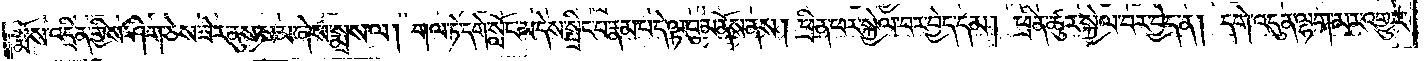སྨོས་འདྲིན་གྱིས་ཤིག་ཅེས་ནུས་སམ་ཞེས་སྨྲས་ལ། གལ་ཏེ་དགེ་སློང་མ་དེས་སྤྲིང་པ་རྣམ་པ་དེ་ལྟ་བུ་མནོས་ནས། ཕྲིན་ཕར་སྐྱེལ་བར་བྱེད་དམ། ཕྲིན་ཚུར་སྐྱེལ་བར་བྱེད་ན། དགེ་འདུན་ལྷག་མར་འགྱུར་
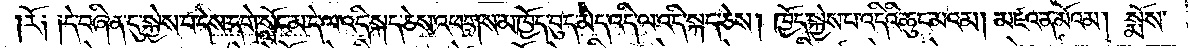རོ༑ ༑དེ་བཞིན་དུ་སྐྱེས་བ་དེས་དགེ་སློང་མ་དེ་ལ་འདི་སྐད་ཅེས་འཕགས་མ་ཁྱོད་བུད་མེད་འདི་ལ་འདི་སྐད་ཅེས། ཁྱོད་སྐྱེས་པ་འདིའི་ཆུང་མའམ། མཛའ་ན་མོའམ། སྨོས་
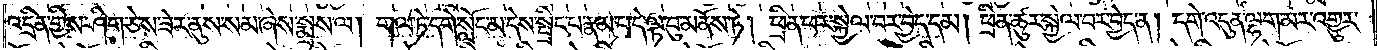འདྲིན་གྱིས་ཤིག་ཅེས་ཟེར་ནུས་སམ་ཞེས་སྨྲས་ལ། གལ་ཏེ་དགེ་སློང་མ་དེས་སྤྲིང་པ་རྣམ་པ་དེ་ལྟ་བུ་མནོས་ཏེ། ཕྲིན་ཕར་སྐྱེལ་བར་བྱེད་དམ། ཕྲིན་ཚུར་སྐྱེལ་བར་བྱེད་ན། དགེ་འདུན་ལྷག་མར་འགྱུར་
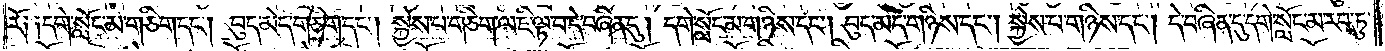རོ༑ ༑དགེ་སློང་མ་གཅིག་དང༌། བུད་མེད་གཅིག་དང༌། སྐྱེས་པ་གཅིག་ལ་ཇི་ལྟ་བ་དེ་བཞིན་དུ། དགེ་སློང་མ་གཉིས་དང༌། བུད་མེད་གཉིས་དང༌། སྐྱེས་པ་གཉིས་དང༌། དེ་བཞིན་དུ་དགེ་སློང་མ་རབ་ཏུ་
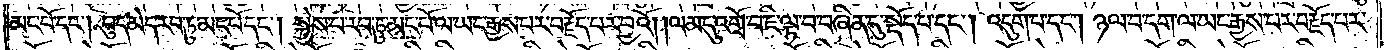མང་པོ་དང༌། བུད་མེད་རབ་ཏུ་མང་པོ་དང༌། སྐྱེས་པ་རབ་ཏུ་མང་པོ་ལ་ཡང་རྒྱས་པར་བརྗོད་པར་བྱའོ། །ལམ་དུ་འགྲོ་བ་ཇི་ལྟ་བ་བཞིན་དུ་སྡོད་པ་དང༌། འདུག་པ་དང༌། ཉལ་བ་དག་ལ་ཡང་རྒྱས་པར་བརྗོད་པར་
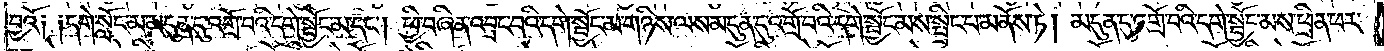བྱའོ༑ ༑དགེ་སློང་མ་མདུན་དུ་འགྲོ་བའི་དགེ་སྦྱོང་མ་དང༌། ཕྱི་བཞིན་འབྲང་བའི་དགེ་སྦྱོང་མ་གཉིས་ལས་མདུན་དུ་འགྲོ་བའི་དགེ་སྦྱོང་མས་སྤྲིང་པ་མནོས་ཏེ། མདུན་དུ་འགྲོ་བའི་དགེ་སྦྱོང་མས་ཕྲིན་ཕར་
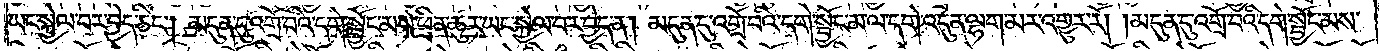ཡང་སྐྱེལ་བར་བྱེད་ཅིང༌། མདུན་དུ་འགྲོ་བའི་དགེ་སྦྱོང་མས་ཕྲིན་ཚུར་ཡང་སྐྱེལ་བར་བྱེད་ན། མདུན་དུ་འགྲོ་བའི་དགེ་སྦྱོང་མ་ལ་དགེ་འདུན་ལྷག་མར་འགྱུར་རོ། །མདུན་དུ་འགྲོ་བའི་དགེ་སྦྱོང་མས་
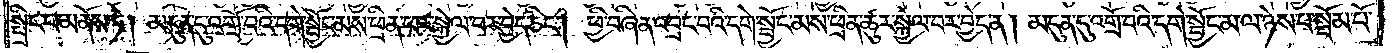སྤྲིང་པ་མནོས་ཏེ། མདུན་དུ་འགྲོ་བའི་དགེ་སྦྱོང་མས་ཕྲིན་ཕར་སྐྱེལ་བར་བྱེད་ཅིང༌། ཕྱི་བཞིན་འབྲང་བའི་དགེ་སྦྱོང་མས་ཕྲིན་ཚུར་སྐྱེལ་བར་བྱེད་ན། མདུན་དུ་འགྲོ་བའི་དགེ་སྦྱོང་མ་ལ་ཉེས་པ་སྦོམ་པོ་
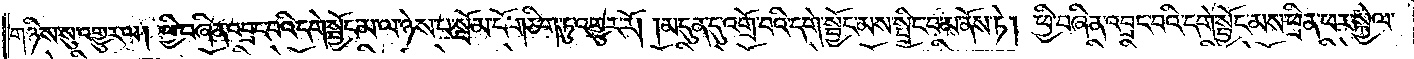གཉིས་སུ་འགྱུར་ལ། ཕྱི་བཞིན་འབྲང་བའི་དགེ་སྦྱོང་མ་ལ་ཉེས་པ་སྦོམ་པོ་གཅིག་ཏུ་འགྱུར་རོ། །མདུན་དུ་འགྲོ་བའི་དགེ་སྦྱོང་མས་སྤྲིང་བ་མནོས་ཏེ། ཕྱི་བཞིན་འབྲང་བའི་དགེ་སྦྱོང་མས་ཕྲིན་ཕར་སྐྱེལ་
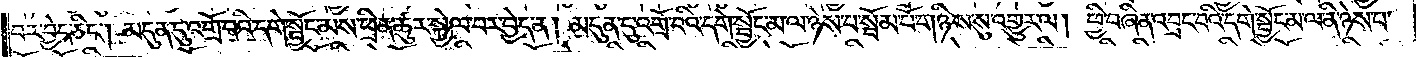བར་བྱེད་ཅིང༌། མདུན་དུ་འགྲོ་བའི་དགེ་སྦྱོང་མས་ཕྲིན་ཚུར་སྐྱེལ་བར་བྱེད་ན། མདུན་དུ་འགྲོ་བའི་དགེ་སྦྱོང་མ་ལ་ཉེས་པ་སྦོམ་པོ་གཉིས་སུ་འགྱུར་ལ། ཕྱི་བཞིན་འབྲང་བའི་དགེ་སྦྱོང་མ་ལ་ནི་ཉེས་པ་
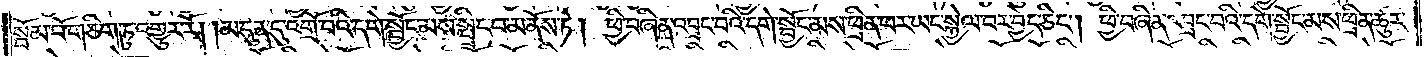སྦོམ་པོ་གཅིག་ཏུ་འགྱུར་རོ། །མདུན་དུ་འགྲོ་བའི་དགེ་སྦྱོང་མས་སྤྲིང་བ་མནོས་ཏེ། ཕྱི་བཞིན་འབྲང་བའི་དགེ་སྦྱོང་མས་ཕྲིན་ཕར་ཡང་སྐྱེལ་བར་བྱེད་ཅིང༌། ཕྱི་བཞིན་འབྲང་བའི་དགེ་སྦྱོང་མས་ཕྲིན་ཚུར་
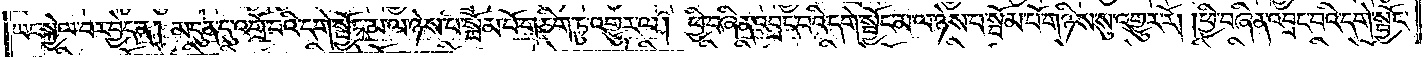ཡང་སྐྱེལ་བར་བྱེད་ན། མདུན་དུ་འགྲོ་བའི་དགེ་སྦྱོང་མ་ལ་ཉེས་པ་སྦོམ་པོ་གཅིག་ཏུ་འགྱུར་ལ། ཕྱི་བཞིན་འབྲང་བའི་དགེ་སྦྱོང་མ་ལ་ཉེས་པ་སྦོམ་པོ་གཉིས་སུ་འགྱུར་རོ། །ཕྱི་བཞིན་འབྲང་བའི་དགེ་སྦྱོང་
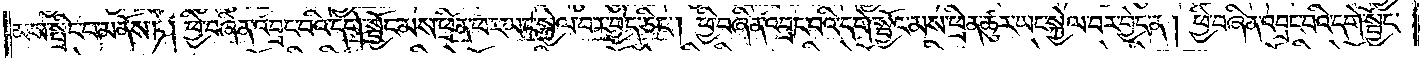མས་སྤྲིང་པ་མནོས་ཏེ། ཕྱི་བཞིན་འབྲང་བའི་དགེ་སྦྱོང་མས་སྤྲིང་ཕར་ཡང་སྐྱེལ་བར་བྱེད་ཅིང༌། ཕྱི་བཞིན་འབྲང་བའི་དགེ་སློང་མས་ཕྲིན་ཚུར་ཡང་སྐྱེལ་བར་བྱེད་ན། ཕྱི་བཞིན་འབྲང་བའི་དགེ་སྦྱོང་
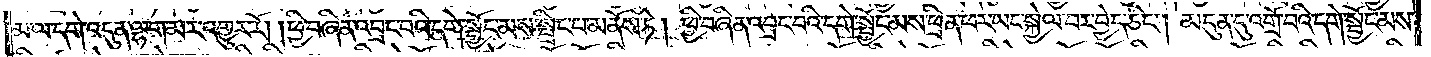མ་ལ་དགེ་འདུན་ལྷག་མར་འགྱུར་རོ། །ཕྱི་བཞིན་འབྲང་བའི་དགེ་སྦྱོང་མས་སྤྲིང་པ་མནོས་ཏེ། ཕྱི་བཞིན་འབྲང་བའི་དགེ་སྦྱོང་མས་ཕྲིན་ཕར་ཡང་སྐྱེལ་བར་བྱེད་ཅིང༌། མདུན་དུ་འགྲོ་བའི་དགེ་སྦྱོང་མས་
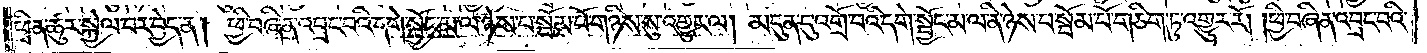ཕྲིན་ཚུར་སྐྱེལ་བར་བྱེད་ན། ཕྱི་བཞིན་འབྲང་བའི་དགེ་སྦྱོང་མ་ལ་ཉེས་པ་སྦོམ་པོ་གཉིས་སུ་འགྱུར་ལ། མདུན་དུ་འགྲོ་བའི་དགེ་སྦྱོང་མ་ལ་ནི་ཉེས་པ་སྦོམ་པོ་གཅིག་ཏུ་འགྱུར་རོ། །ཕྱི་བཞིན་འབྲང་བའི་
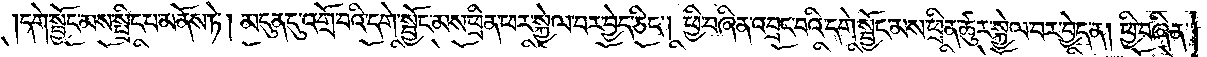དགེ་སྦྱོང་མས་སྤྲིང་པ་མནོས་ཏེ། མདུན་དུ་འགྲོ་བའི་དགེ་སྦྱོང་མས་ཕྲིན་ཕར་སྐྱེལ་བར་བྱེད་ཅིང༌། ཕྱི་བཞིན་འབྲང་བའི་དགེ་སྦྱོང་མས་ཕྲིན་ཚུར་སྐྱེལ་བར་བྱེད་ན། ཕྱི་བཞིན་
